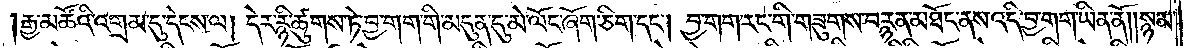རྒྱ་མཚོའི་འགྲམ་དུ་དེངས་ལ། དེར་རྙི་ཚུགས་ཏེ་བྱ་གག་གི་མདུན་དུ་མེ་ལོང་ཞོག་ཅིག་དང༌། བྱ་གག་རང་གི་གཟུགས་བརྙན་མཐོང་ནས་འདི་བྱ་གག་ཡིན་ནོ། །སྙམ་
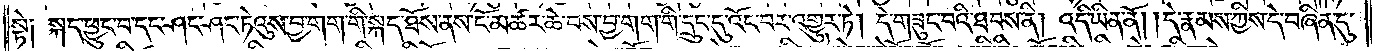སྟེ༑ སྐད་ཕྱུང་བ་དང་ཤང་ཤང་ཏེའུས་བྱ་གག་གི་སྐད་ཐོས་ནས་ངོ་མཚར་ཆེ་བས་བྱ་གག་གི་དྲུང་དུ་འོང་བར་འགྱུར་ཏེ། དེ་གཟུང་བའི་ཐབས་ནི། འདི་ཡིན་ནོ། །དེ་རྣམས་ཀྱིས་དེ་བཞིན་དུ་
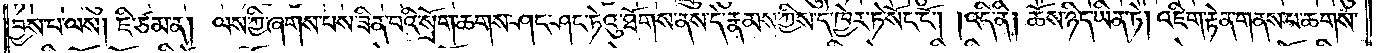བྱས་པ་ལས། ཇི་ཙམ་ན། ལས་ཀྱི་ཞགས་པས་ཟིན་པའི་སྲོག་ཆགས་ཤང་ཤང་ཏེའུ་ཐོགས་ནས་དེ་རྣམས་ཀྱིས་དེ་ཁྱེར་ཏེ་སོང་ངོ༌། །འདི་ནི། ཆོས་ཉིད་ཡིན་ཏེ། འཇིག་རྟེན་གནས་པ་ཆགས་
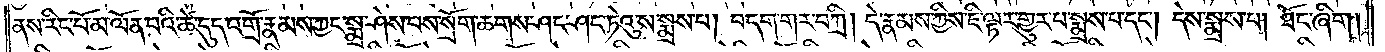ནས་རིང་པོ་མ་ལོན་པའི་ཚེ་དུད་འགྲོ་རྣམས་ཀྱང་སྨྲ་ཤེས་པས་སྲོག་ཆགས་ཤང་ཤང་ཏེའུ་ས་སྨྲས་པ། བདག་གར་བཀྲི། དེ་རྣམས་ཀྱིས་ཇི་ལྟར་གྱུར་པ་སྨྲས་པ་དང༌། དེས་སྨྲས་པ། ཐོང་ཞིག།
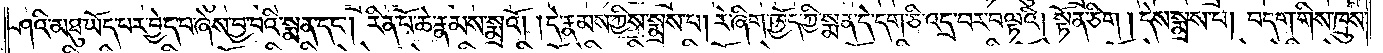ཤའི་མཐུ་ཡོད་པར་བྱེད་པ་ཞེས་བྱ་བའི་སྨན་དང༌། རིན་པོ་ཆེ་རྣམས་སྨྲའོ། །དེ་རྣམས་ཀྱིས་སྨྲས་པ། རེ་ཞིག་ཁྱོད་ཀྱིས་སྨན་དེ་དག་ཅི་འདྲ་བར་བལྟའི། སྟོན་ཅིག །དེས་སྨྲས་པ། བདག་གིས་ཁྲུས་
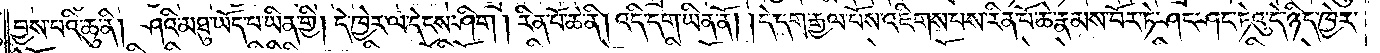བྱས་པའི་ཆུ་ནི། ཤའི་མཐུ་ཡོད་པ་ཡིན་གྱི། དེ་ཁྱེར་ལ་དེངས་ཤིག །རིན་པོ་ཆེ་ནི། འདི་དག་ཡིན་ནོ། །དེ་དག་རྒྱལ་པོས་འཇིགས་པས་རིན་པོ་ཆེ་རྣམས་བོར་ཏེ་ཤང་ཤང་ཏེའུ་དེ་ཉིད་ཁྱེར་
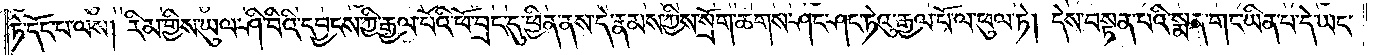ཏེ་དོང་པ་ལས། རིམ་གྱིས་ཡུལ་ཤི་བིའི་དབྱངས་ཀྱི་རྒྱལ་པོའི་ཕོ་བྲང་དུ་ཕྱིན་ནས་དེ་རྣམས་ཀྱིས་སྲོག་ཆགས་ཤང་ཤང་ཏེའུ་རྒྱལ་པོ་ལ་ཕུལ་ཏེ། དེས་བསྟན་པའི་སྨན་གང་ཡིན་པ་དེ་ཡང་
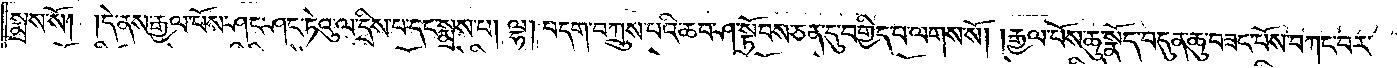སྨྲས་སོ། །དེ་ནས་རྒྱལ་པོས་ཤང་ཤང་ཏེའུ་ལ་དྲིས་པ་དང་སྨྲས་པ། ལྷ། བདག་བཀྲུས་པའི་ཆབ་ཤ་སྟོབས་ཅན་དུ་བགྱིད་པ་ལགས་སོ། །རྒྱལ་པོས་ཆུ་སྣོད་བདུན་ཆུ་བཟང་པོས་བཀང་བར་
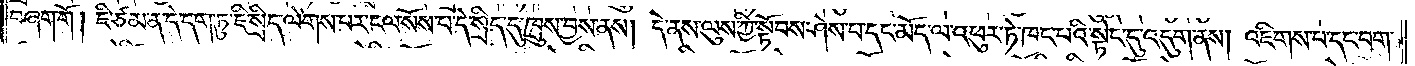བཞག་གོ །ཇི་ཙམ་ན་དེ་དག་ཏུ་ཇི་སྲིད་ལེགས་པར་ངལ་སོས་པ་དེ་སྲིད་དུ་ཁྲུས་བྱས་ནས། དེ་ནས་ལུས་ཀྱི་སྟོབས་ཤེས་པ་དང་མོད་ལ་འཕུར་ཏེ་ཁང་པའི་སྟེང་དུ་འདུག་ནས། འཇིགས་པ་དང་བག་
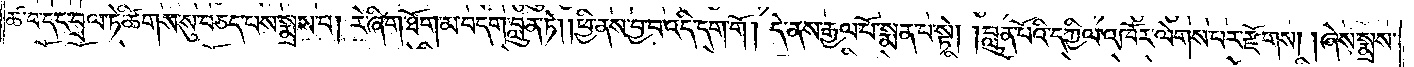ཚ་བ་དང་བྲལ་ཏེ་ཚིགས་སུ་བཅད་པས་སྨྲས་པ། རེ་ཞིག་ཐོག་མ་བདག་བླུན་ཏེ། །ཕྱི་ནས་བྱ་བ་འདི་དག་གོ །དེ་ནས་རྒྱལ་པོ་སྨན་པ་སྟེ། །བླུན་པོའི་དཀྱིལ་འཁོར་ལེགས་པར་རྫོགས། །ཞེས་སྨྲས་
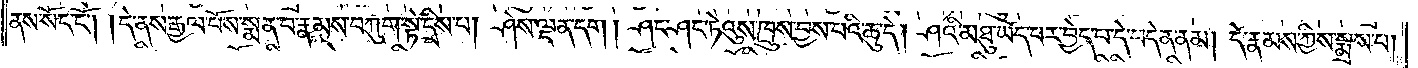ནས་སོང་ངོ༌། །དེ་ནས་རྒྱལ་པོས་སྨན་པ་རྣམས་བཀུག་སྟེ་དྲིས་པ། ཤེས་ལྡན་དག །ཤང་ཤང་ཏེའུས་ཁྲུས་བྱས་པའི་ཆུ་དེ། ཤའི་མཐུ་ཡོད་པར་བྱེད་པ་དེ་བདེན་ནམ། དེ་རྣམས་ཀྱིས་སྨྲས་པ།
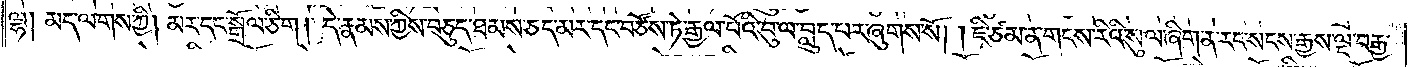ལྷ། མད་ལགས་ཀྱི། མར་དང་སྒྲོལ་ཅིག །དེ་རྣམས་ཀྱིས་བཅུད་ཐམས་ཅད་མར་དང་བཙོས་ཏེ་རྒྱལ་པོའི་བུ་ལ་བླུད་པར་ཞུགས་སོ། །ཇི་ཙམ་ན་གངས་རིའི་སུལ་ཞིག་ན་རང་སངས་རྒྱས་ལྔ་བརྒྱ་
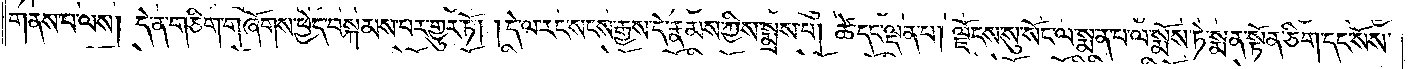གནས་པ་ལས། དེ་ན་གཅིག་གཞོགས་ཕྱེད་བསྐམས་པར་གྱུར་ཏོ། །དེ་ལ་རང་སངས་རྒྱས་དེ་རྣམས་ཀྱིས་སྨྲས་པ། ཚེ་དང་ལྡན་པ། ལྗོངས་སུ་སོང་ལ་སྨན་པ་ལ་སྨོས་ཏེ་སྨན་སྟོན་ཅིག་དང་སོས་
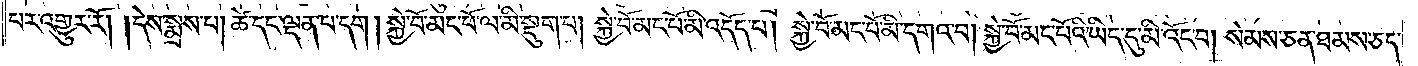པར་འགྱུར་རོ། །དེས་སྨྲས་པ། ཚེ་དང་ལྡན་པ་དག །སྐྱེ་བོ་མང་པོ་ལ་མི་སྡུག་པ། སྐྱེ་བོ་མང་པོ་མི་འདོད་པ། སྐྱེ་བོ་མང་བོ་མི་དགའ་བ། སྐྱེ་བོ་མང་པོའི་ཡིད་དུ་མི་འོང་བ། སེམས་ཅན་ཐམས་ཅད་
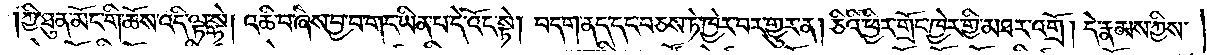ཀྱི་ཐུན་མོང་གི་ཆོས་འདི་ལྟ་སྟེ། འཆི་བ་ཞེས་བྱ་བ་གང་ཡིན་པ་དེ་འོང་སྟེ། བདག་ནད་དང་བཅས་ཏེ་ཁྱེར་བར་གྱུར་ན། ཅིའི་ཕྱིར་གྲོང་ཁྱེར་གྱི་མཐར་འགྲོ། དེ་རྣམས་ཀྱིས་
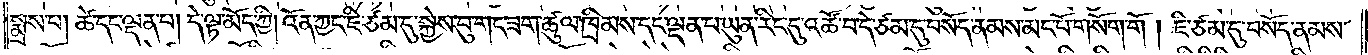སྨྲས་པ། ཚེ་དང་ལྡན་པ། དེ་ལྟ་མོད་ཀྱི། འོན་ཀྱང་ཇི་ཙམ་དུ་སྐྱེས་བུ་གང་ཟག་ཚུལ་ཁྲིམས་དང་ལྡན་པ་ཡུན་རིང་དུ་འཚོ་བ་དེ་ཙམ་དུ་བསོད་ནམས་མང་པོ་གསོག་གོ། ཇི་ཙམ་དུ་བསོད་ནམས་
